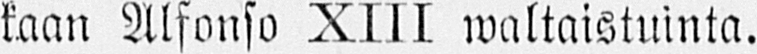kaan Alfonso XIII waltaistuinta.
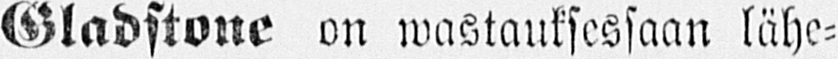Gladstone on wastauksessaan lähe-
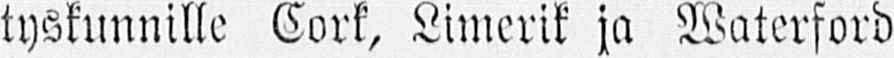tyskunnille Cork, Limerik ja Waterford
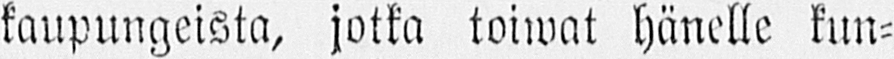kaupungeista, jotka toiwat hänelle kun-
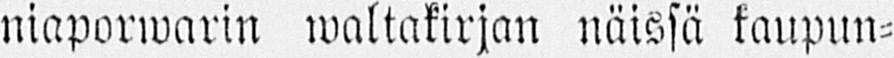niaporwarin waltakirjan näissä kaupun-
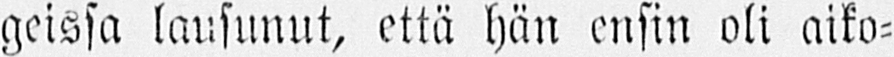geissa lausunut, että hän ensin oli aiko-
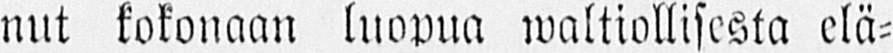nut kokonaan luopua waltiollisesta elä-
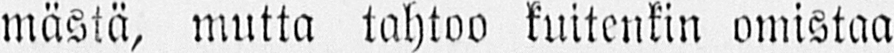mästä, mutta tahtoo kuitenkin omistaa
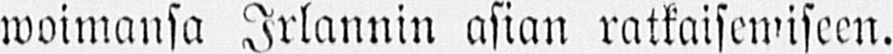woimansa Irlannin asian ratkaisemiseen.
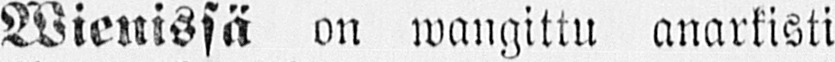Wienissa on wangittu anarkisti
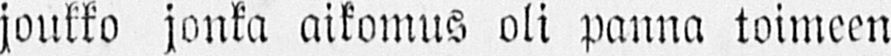joukko jonka aikomus oli panna toimeen
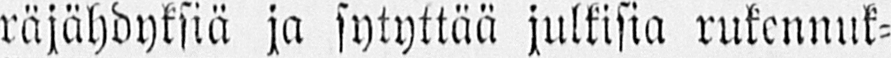räjähdyksiä ja sytyttää julkisia rakennuk-
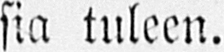sia tuleen.
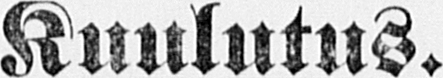Kuulutus.
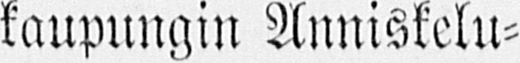Mikkelin kaupungin Anniskelu-
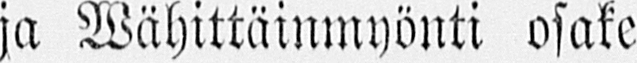ja Wähittäinmyönti osake
